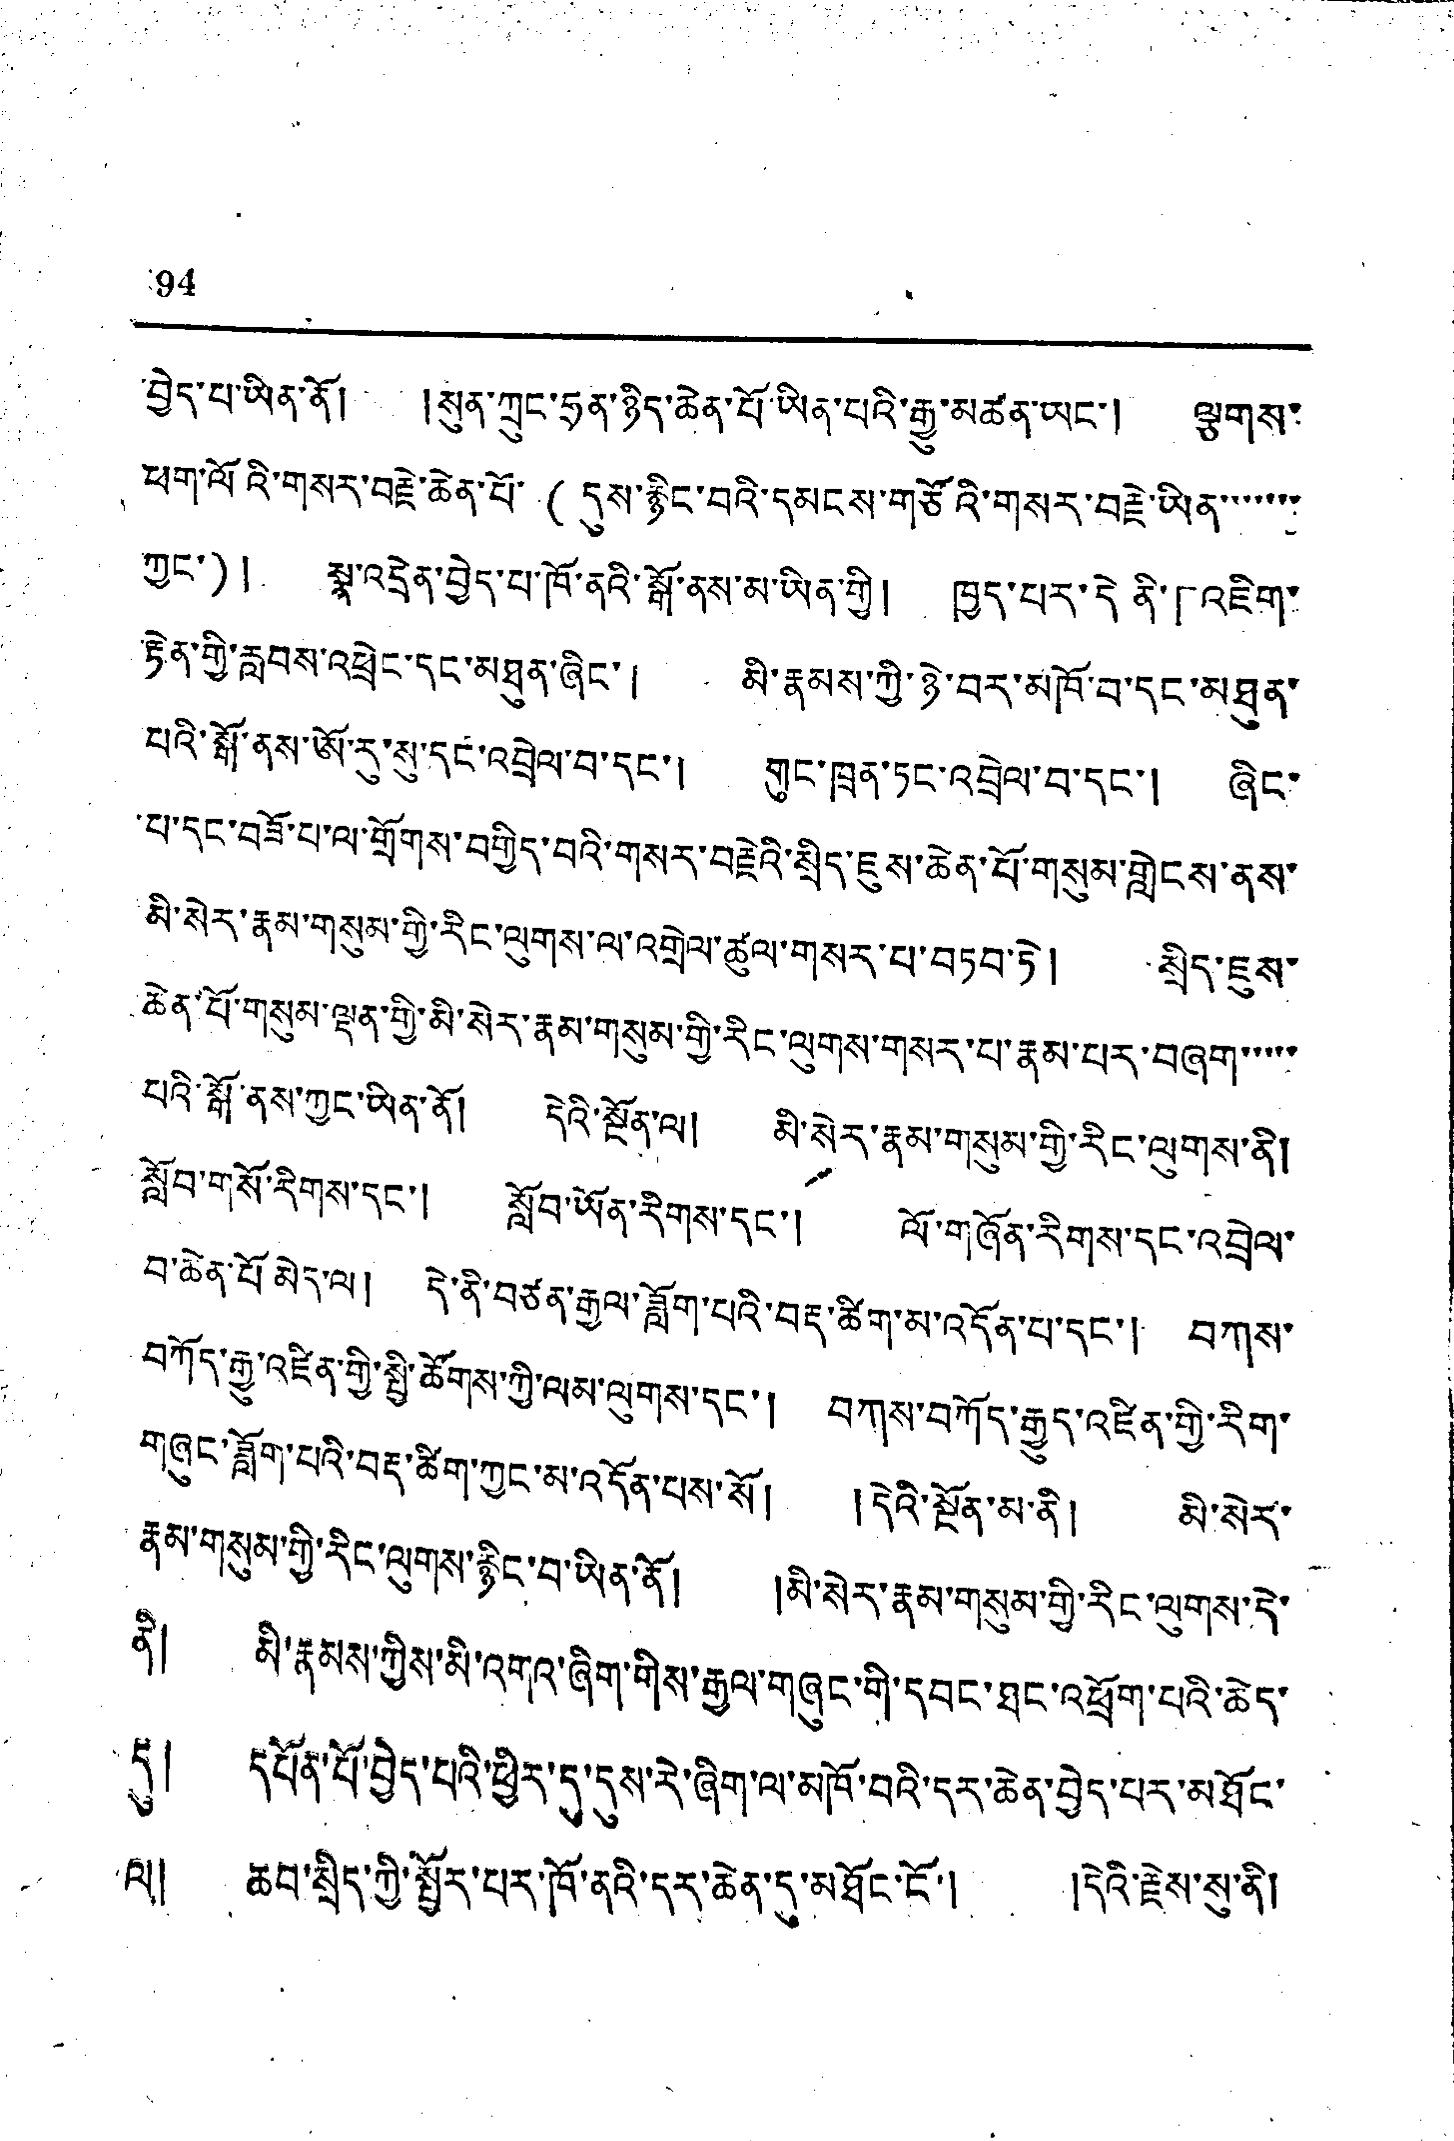94
བྱེད་པ་ཡིན་ནོ། །སུན་ཀྲུང་ཧྲན་ཉིད་ཆེན་པོ་ཡིན་པའི་རྒྱུ་མཚན་ཡང་། ལྕགས་
ཕག་ལོའི་གསར་བརྗེ་ཆེན་པོ་ ( དུས་རྙིང་བའི་དམངས་གཙོའི་གསར་བརྗེ་ཡིན་་་་་་་་
ཀྱང་) ། སྣ་འདྲེན་བྱེད་པ་ཁོ་ནའི་སྒོ་ནས་མ་ཡིན་གྱི། ཁྱད་པར་དེ་ནི་「འཇིག་
རྟེན་གྱི་རླབས་འཕྲེང་དང་མཐུན་ཞིང་། མི་རྣམས་ཀྱི་ཉེ་བར་མཁོ་བ་དང་མཐུན་
པའི་སྒོ་ནས་ཨོ་རུ་སུ་དང་འབྲེལ་བ་དང་། གུང་ཁྲན་ཏང་འབྲེལ་བ་དང་། ཞིང་
པ་དང་བཟོ་པ་ལ་གྲོགས་བགྱིད་བའི་གསར་བརྗེའི་སྲིད་ཇུས་ཆེན་པོ་གསུམ་གླེངས་ནས་
མི་སེར་རྣམ་གསུམ་གྱི་རིང་ལུགས་ལ་འགྲེལ་ཚུལ་གསར་པ་བཏབ་ཏེ། སྲིད་ཇུས་
ཆེན་པོ་གསུམ་ལྡན་གྱི་མི་སེར་རྣམ་གསུམ་གྱི་རིང་ལུགས་གསར་པ་རྣམ་པར་བཞག་་་་་་
པའི་སྒོ་ནས་ཀྱང་ཡིན་ནོ། དེའི་སྔོན་ལ། མི་སེར་རྣམ་གསུམ་གྱི་རིང་ལུགས་ནི།
སློབ་གསོ་རིགས་དང་། སློབ་ཡོན་རིགས་དང་། ལོ་གཞོན་རིགས་དང་འབྲེལ་
བ་ཆེན་པོ་མེད་ལ། དེ་ནི་བཙན་རྒྱལ་ཟློག་པའི་བརྡ་ཚིག་མ་འདོན་པ་དང་། བཀས་
བཀོད་རྒྱུ་འཛིན་གྱི་སྤྱི་ཚོགས་ཀྱི་ལམ་ལུགས་དང་། བཀས་བཀོད་རྒྱུད་འཛིན་གྱི་རིག་
གཞུང་ཟློག་པའི་བད་ཚིག་ཀྱང་མ་འདོན་པས་སོ། །དེའི་སྔོན་མ་ནི། མི་སེར་
ནིམ་གསུམ་ཀྱི་རིང་ལུགས་རྙིང་བ་ཡིན་ནོ། །ཡི་སེར་རྣམ་གསུམ་གྱི་རིང་ལུགས་དེ་
ནི། མི་རྣམས་ཀྱིས་མི་འགའ་ཞིག་གིས་རྒྱལ་གཞུང་གི་དབང་ཐང་འཕྲོག་པའི་ཆེད་
དུ། དཔོན་པོ་བྱེད་པའི་ཕྱིར་དུ་དུས་རེ་ཞིག་ལ་མཁོ་བའི་དར་ཆེན་བྱེད་པར་མཐོང་
ལ། ཆབ་སྲིད་ཀྱི་སྤྱོར་པར་ཁོ་ནའི་དར་ཆེན་དུ་མཐོང་ངོ་། དེའི་རྗེས་སུ་ནི།
